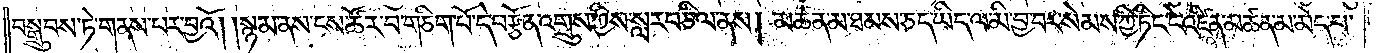བསྒྲུབས་ཏེ་གནས་པར་བྱའོ། །སྙམ་ནས་ངས་ཚོར་བ་གཅིག་པོ་དེ་བརྩོན་འགྲུས་ཀྱིས་སླར་བཅིལ་ནས། མཚན་མ་ཐམས་ཅད་ཡིད་ལ་མི་བྱ་བར་སེམས་ཀྱི་ཏིང་ངེ་འཛིན་མཚན་མ་མེད་པ་
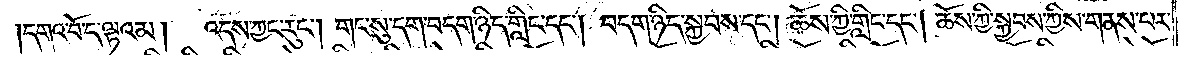དགའ་བོ་ད་ལྟའམ། འདས་ཀྱང་རུང༌། གང་སུ་དག་བདག་ཉིད་གླིང་དང༌། བདག་ཉིད་སྐྱབས་དང༌། ཆོས་ཀྱི་གླིང་དང༌། ཆོས་ཀྱི་སྐྱབས་ཀྱིས་གནས་པར་
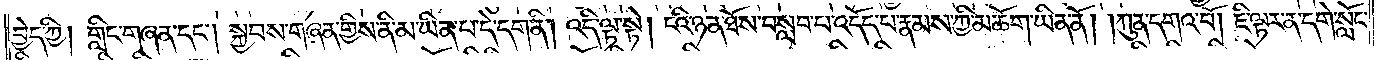བྱེད་ཀྱི། གླིང་གཞན་དང༌། སྐྱབས་གཞན་གྱིས་ནི་མ་ཡིན་པ་དེ་དག་ནི། འདི་ལྟ་སྟེ། ངའི་ཉན་ཐོས་བསླབ་པ་འདོད་པ་རྣམས་ཀྱི་མཆོག་ཡིན་ནོ། །ཀུན་དགའ་བོ། ཇི་ལྟར་ན་དགེ་སློང་
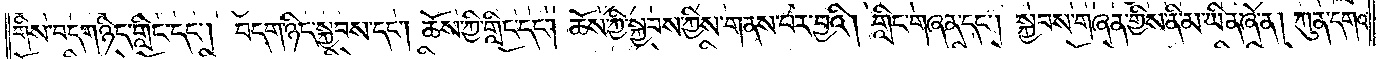གིས་བདག་ཉིད་གླིང་དང༌། བདག་ཉིད་སྐྱབས་དང༌། ཆོས་ཀྱི་གླིང་དང༌། ཆོས་ཀྱི་སྐྱབས་ཀྱིས་གནས་པར་བྱའི། གླིང་གཞན་དང༌། སྐྱབས་གཞན་གྱིས་ནི་མ་ཡིན་ཞེ་ན། ཀུན་དགའ་
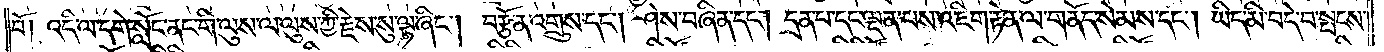བོ། འདི་ལ་དགེ་སློང་ནང་གི་ལུས་ལ་ལུས་ཀྱི་རྗེས་སུ་ལྟ་ཞིང༌། བརྩོན་འགྲུས་དང༌། ཤེས་བཞིན་དང༌། དྲན་པ་དང་ལྡན་པས་འཇིག་རྟེན་ལ་གནོད་སེམས་དང༌། ཡིད་མི་བདེ་བ་སྤངས་
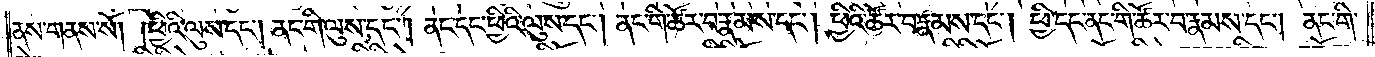ནས་གནས་སོ། །ཕྱིའི་ལུས་དང༌། ནང་གི་ལུས་དང༌། ནང་དང་ཕྱིའི་ལུས་དང༌། ནང་གི་ཚོར་བ་རྣམས་དང༌། ཕྱིའི་ཚོར་བ་རྣམས་དང༌། ཕྱི་དང་ནང་གི་ཚོར་བ་རྣམས་དང༌། ནང་གི་
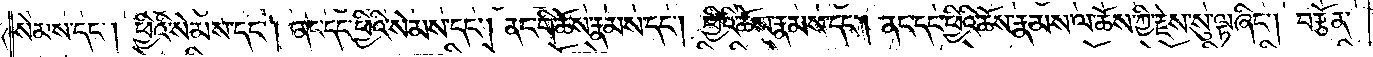སེམས་དང༌། ཕྱིའི་སེམས་དང༌། ནང་དང་ཕྱིའི་སེམས་དང༌། ནང་གི་ཆོས་རྣམས་དང༌། ཕྱིའི་ཆོས་རྣམས་དང༌། ནང་དང་ཕྱིའི་ཆོས་རྣམས་ལ་ཆོས་ཀྱི་རྗེས་སུ་ལྟ་ཞིང༌། བརྩོན་
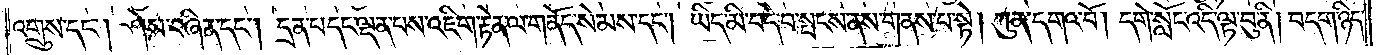འགྲུས་དང༌། ཤེས་བཞིན་དང༌། དྲན་པ་དང་ལྡན་པས་འཇིག་རྟེན་ལ་གནོད་སེམས་དང༌། ཡིད་མི་བདེ་བ་སྤངས་ནས་གནས་པ་སྟེ། ཀུན་དགའ་བོ། དགེ་སློང་འདི་ལྟ་བུ་ནི། བདག་ཉིད་
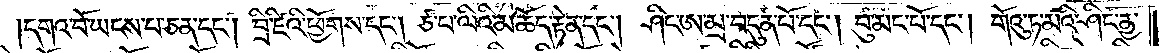དགའ་བོ་ཡངས་པ་ཅན་དང༌། བྲི་ཛིའི་ཕྱོགས་དང༌། ཙ་པ་ལིའི་མཆོད་རྟེན་དང༌། ཤིང་ཨ་མྲ་བདུན་པོ་དང༌། བུ་མང་པོ་དང༌། གོའུ་ཏ་མའི་ཤིང་ནྱ་
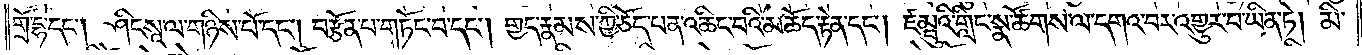གྲོ་དྷ་དང༌། ཤིང་སཱ་ལ་གཉིས་པོ་དང༌། བརྩོན་པ་གཏོང་བ་དང༌། གྱད་རྣམས་ཀྱི་ཅོད་པན་འཆིང་བའི་མཆོད་རྟེན་དང༌། ཛམྦུའི་གླིང་སྣ་ཚོགས་ལ་དགའ་བར་འགྱུར་བ་ཡིན་ཏེ། མི་
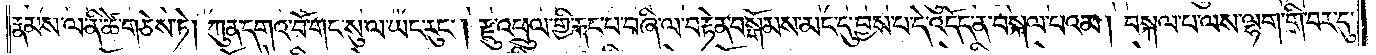རྣམས་ལ་ནི་ཚེ་གཅེས་ཏེ། ཀུན་དགའ་བོ་གང་སུ་ལ་ཡང་རུང༌། རྫུ་འཕྲུལ་གྱི་རྐང་པ་བཞི་ལ་བརྟེན་བསྒོམས་མང་དུ་བྱས་པ་དེ་འདོད་ན་བསྐལ་པའམ། བསྐལ་པ་ལས་ལྷག་གི་བར་དུ་
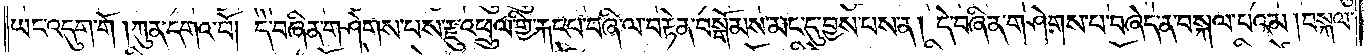ཡང་འདུག་གོ །ཀུན་དགའ་བོ། དེ་བཞིན་གཤེགས་པས་རྫུ་འཕྲུལ་གྱི་རྐང་པ་བཞི་ལ་བརྟེན་བསྒོམས་མང་དུ་བྱས་པས་ན། དེ་བཞིན་གཤེགས་པ་བཞེད་ན་བསྐལ་པའམ། བསྐལ་
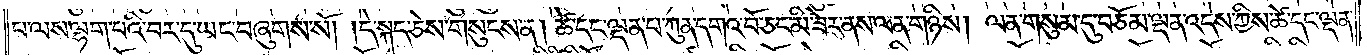པ་ལས་ལྷག་པའི་བར་དུ་ཡང་བཞུགས་སོ། །དེ་སྐད་ཅེས་གསུངས་ན། ཚེ་དང་ལྡན་པ་ཀུན་དགའ་བོ་ཅང་མི་ཟེར་ནས་ལན་གཉིས། ལན་གསུམ་དུ་བཅོམ་ལྡན་འདས་ཀྱིས་ཚེ་དང་ལྡན་
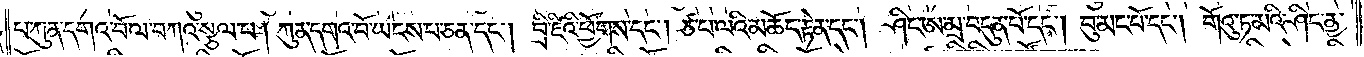པ་ཀུན་དགའ་བོ་ལ་བཀའ་སྩལ་པ། ཀུན་དགའ་བོ་ཡངས་པ་ཅན་དང༌། བྲི་ཛིའི་ཕྱོགས་དང༌། ཙ་པ་ལའི་མཆོད་རྟེན་དང༌། ཤིང་ཨ་མྲ་བདུན་པོ་དང༌། བུ་མང་པོ་དང༌། གོའུ་ཏ་མའི་ཤིང་ནྱ་
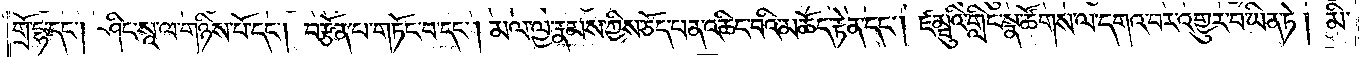གྲོ་དྷ་དང༌། ཤིང་སཱ་ལ་གཉིས་པོ་དང༌། བརྩོན་པ་གཏོང་བ་དང༌། མལ་ལྱ་རྣམས་ཀྱིས་ཅོད་པན་འཆིང་བའི་མཆོད་རྟེན་དང༌། ཛམྦུའི་གླིང་སྣ་ཚོགས་ལ་དགའ་བར་འགྱུར་བ་ཡིན་ཏེ། མི་
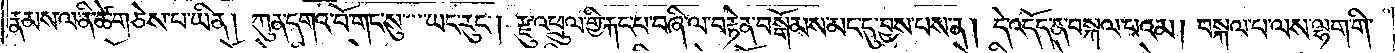རྣམས་ལ་ནི་ཚེ་གཅེས་པ་ཡིན། ཀུན་དགའ་བོ་གང་སུ་ཡང་རུང༌། རྫུ་འཕྲུལ་གྱི་རྐང་པ་བཞི་ལ་བརྟེན་བསྒོམས་མང་དུ་བྱས་པས་ན། དེ་འདོད་ན་བསྐལ་པའམ། བསྐལ་པ་ལས་ལྷག་གི་
